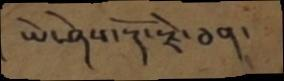ཡེ་ཤེས་རྡོ་རྗེ་ཅན་
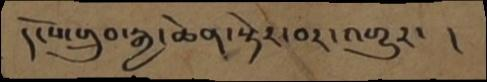དངོས་གྲུབ་རྒྱ་ཆེན་སྟེར་བར་འགྱུར་ །
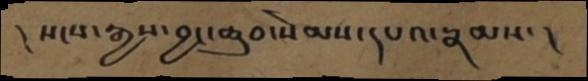། སངས་རྒྱས་བྱང་ཆུབ་སེམས་དཔའ་རྣམས་།
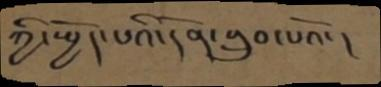ཀྱི་སྤྱོད་པའི་དོན་གྲུབ་པའོ་།
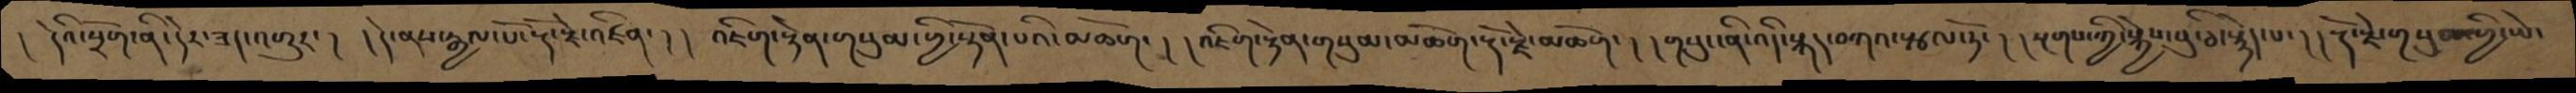། དེའི་སྲོག་ནི་དེར་ཟད་འགྱུར་།  །དེ་ནས་རྒྱལ་པོ་རྡོ་རྗེ་འཛིན་། ། འཇིག་རྟེན་གསུམ་གྱི་སྟོན་པའི་མཆོག་། །འཇིག་རྟེན་གསུམ་མཆོག་རྡོ་རྗེ་མཆོག་། །གསུང་ནི་འདི་སྐད་བཀའ་སྩལ་ཏོ་། །སྔགས་ཀྱི་སྐྱེས་བུ་ཅི་སྙེད་པ་། །རྡོ་རྗེ་གསུམ་གྱི་ཡེ་
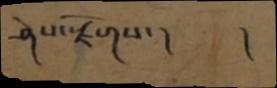ཤེས་རྫོགས་།      །
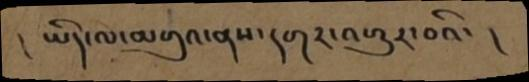། ཡིད་ལ་མགུའ་ནས་དགར་འགྱུར་བའི་།
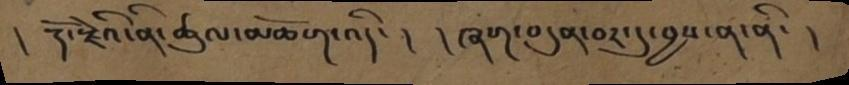། རྡོ་རྗེའི་ནི་ཚུལ་མཆོག་འདི་།  །ཞག་བདུན་བར་དུ་བྱས་ན་ནི་།
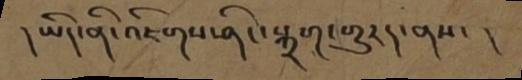།ཡིད་ནི་འཇིགས་ཤིང་སྐྲག་གྱུརད་ནས་།
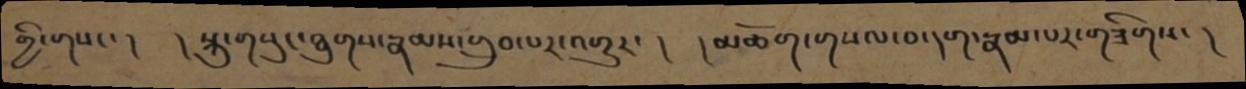ཀྱི་གསང་། །སྐུ་གསུང་ཐུགས་རྣམས་གྲུབ་པར་འགྱུར་། །མཆོག་གསལ་བ་དག་རྣམ་པར་གཟིགས་།
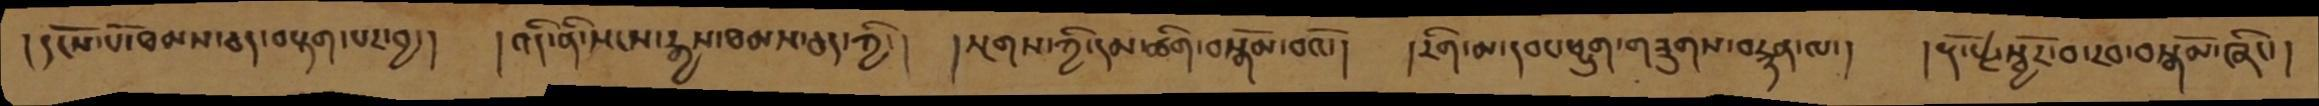།དངོས་པོ་ཐམས་ཅད་བརྟག་པར་བྱ་།   །འདི་ནི་སངས་རྒྱས་ཐམས་ཅད་ཀྱི་།  །སྔགས་ཀྱི་དམ་ཚིག་བསྒོམ་བའོ་།   །རིག་མ་དབང་ཕྱུག་གཟུགས་བརྙན་ལ་།  །རྡོ་རྗེ་སྦྱོར་བ་རབ་བསྒོམ་ཞིང་།
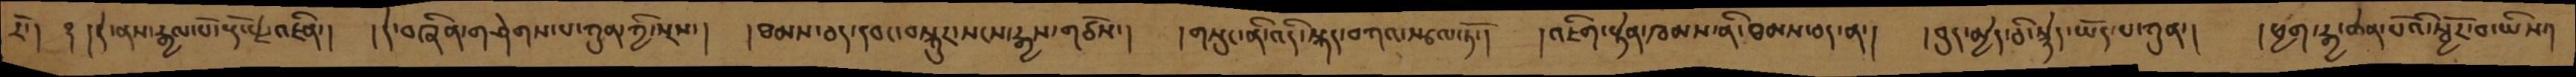རོ་།  ࿑ །དེ་ནས་རྒྱལ་པོ་རྡོ་རྗེ་འཛིན་།  །དེ་བཞིན་གཤེགས་པ་ཀུན་ཀྱི་སྲས་།   །ཐམས་ཅད་དབང་བསྐུར་སངས་རྒྱས་གཙོས་།  །གསུང་ནི་འདི་སྐད་བཀའ་སྩལ་ཏོ་།  །འཇིག་རྟེན་ཁམས་ནི་ཐམས་ཅད་ན་།  །བུད་མྱེད་ཅི་སྙེད་ཡོད་པ་ཀུན་།  །ཕྱག་རྒྱ་ཆེན་པོའི་སྦྱོར་བ་ཡིས་།
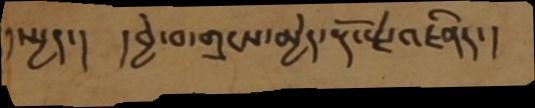།སྤྱད་།  །བྱེ་བ་གྲངས་མྱེད་རྡོ་རྗེ་འཛིནད་།
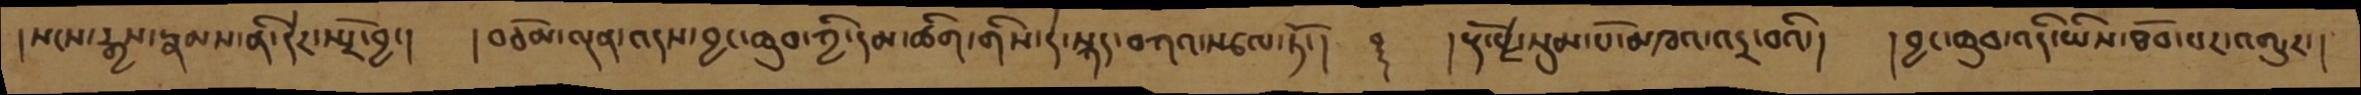།སངས་རྒྱས་རྣམས་ནི་དེར་སྤྲོ་བྱ་།  །བཅོམ་ལྡན་འདས་བྱང་ཆུབ་ཀྱི་དམ་ཚིག་གིས་དེ་སྐད་བཀའ་སྩལ་ཏོ་།  ࿑  །རྡོ་རྗེ་སུམ་པོ་མཁའ་འདྲ་བའི་།  །བྱང་ཆུབ་འདི་ཡིས་ཐོབ་པར་འགྱུར་།
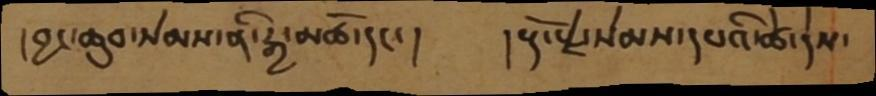།བྱང་ཆུབ་སེམས་ནི་རྒྱ་མཚོ་དང་།   །རྡོ་རྗེ་སེམས་པའི་ཚེ་དེས་
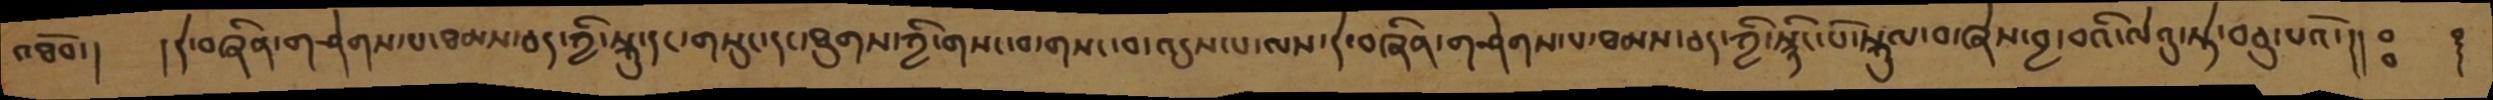འཐོབ་།   །དེ་བཞིནགཤེགས་པ་ཐམས་ཅད་ཀྱི་སྐུ་དང་གསུང་དང་ཐུགས་ཀྱི་གསང་བ་གསང་བ་འདུས་པ་ལས་དེ་བཞིན་གཤེགས་པ་ཐམས་ཅད་ཀྱི་སྙིང་པོ་སྐུལ་བ་ཞེས་བྱ་བའི་ལེའུ་སྟེ་བཅུ་པའོ་།།  ཿ    །
